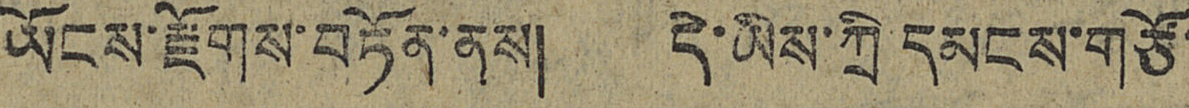ཡོངས་རྫོགས་བཏོན་ནས། དེ་ཡིས་ཀྲི དམངས་གཙོ་
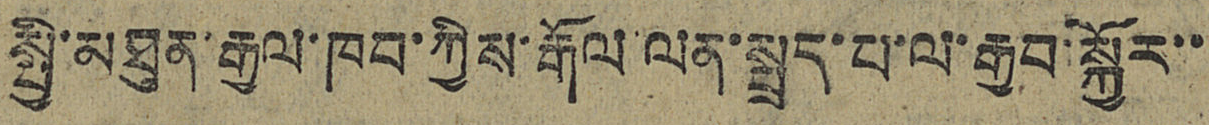སྤྱི་མཐུན་རྒྱལ་ཁབ་ཀྱིས་རྒོལ་ལན་སྤྲད་པ་ལ་རྒྱབ་སྐྱོར་་
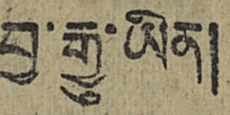བྱ་རྒྱུ་ཡིན།
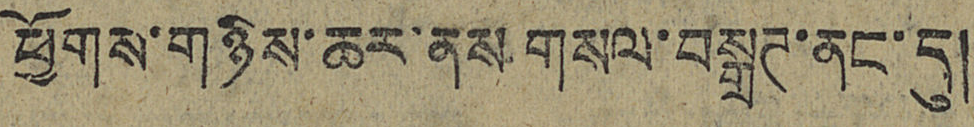ཕྱོགས་གཉིས་ཆར་ནས གསལ་བསྒྲཊ་ནང་དུ།
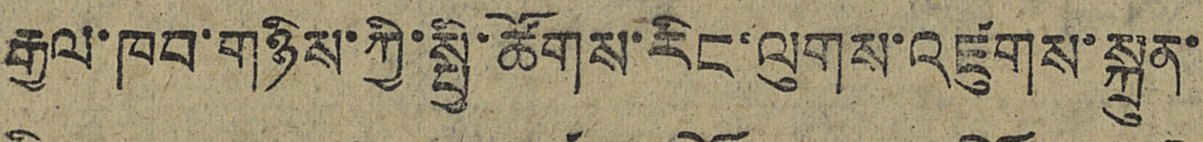རྒྱལ་ཁབ་གཉིས་ཀྱི་སྤྱི་ཚོགས་རིང་ལུགས་འཛུགས་སྐྲུན་
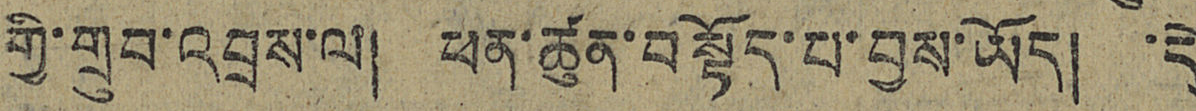གྱི་གྲུབ་འབྲས་ལ། ཕན་ཚུན་བསྟོད་པ་བྱས་ཡོད། ་དེ
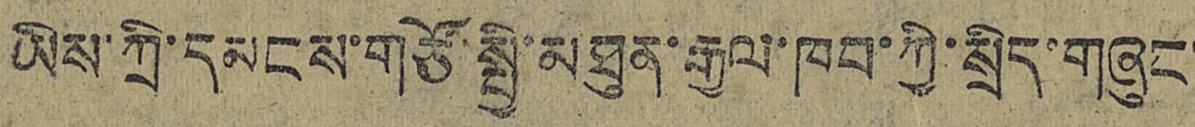ཡིས་ཀྲི་དམངས་གཙོ་སྤྱི་མཐུན་རྒྱལ་ཁབ་ཀྱི་སྲིད་གཞུང་
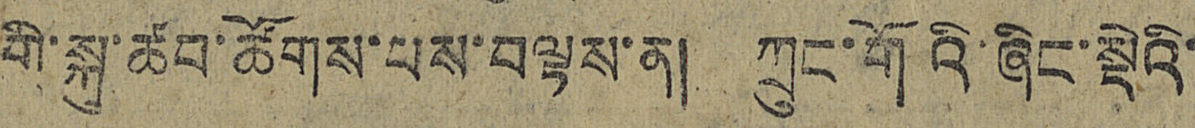གི་སྐུ་ཚབ་ཚོགས་པས་བསྟས་ན། ཀྲུང་གོའི་ཞིང་སྡེའི་
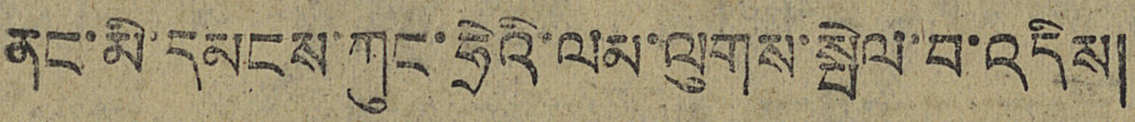ནང་མི་དམངས་ཀུང་ཧྲེའི་ལམ་ལུགས་སྤེལ་བ་འདིས།
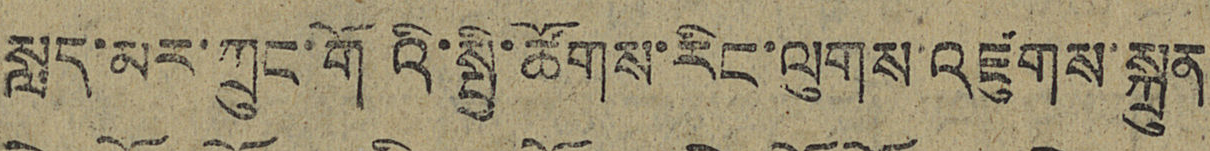སླད་མར་ཀྲུང་གོའི་སྤྱི་ཚོགས་རིང་ལུགས་འཛུགས་སྐྲུན
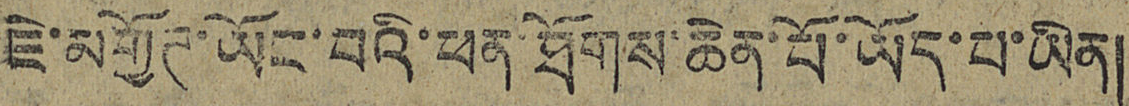ཇེ་མགྱོཊ་ཡོང་བའི་ཕན་ཐོགས་ཆེན་པོ་ཡོད་པ་ཡིན།
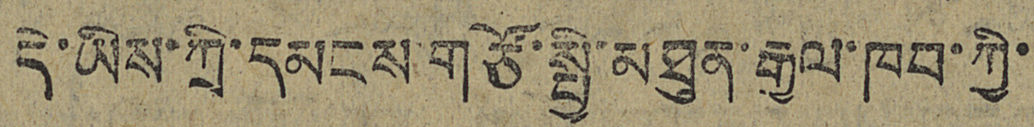དེ་ཡིས་ཀྲི་དམངས་གཙོ་སྤྱི་མཐུན་རྒྱལ་ཁབ་ཀྱི་
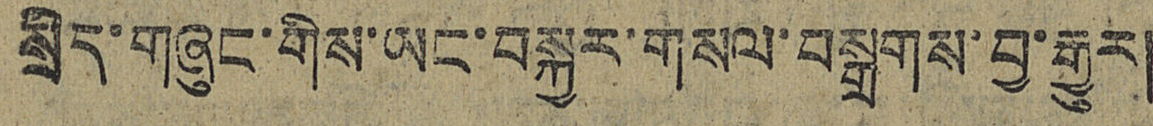སྲིད་གཞུང་གིས་ཡང་བསྐྱར་གསལ་བསྒྲགས་བྱ་རྒྱུར།
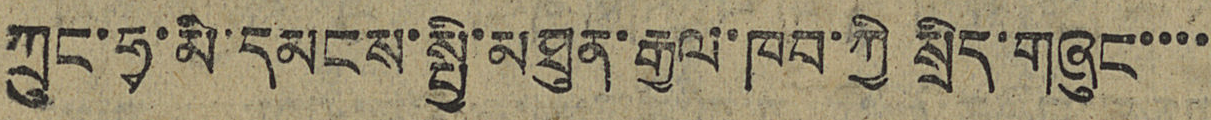ཀྲུང་ཧྭ་མི་དམངས་སྤྱི་མཐུན་རྒྱལ་ཁབ་ཀྱི སྲིད་གཞུང་་་་
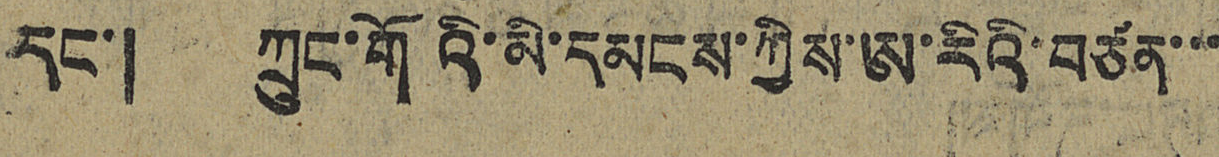དང་། ཀྲུང་གོའི་མི་དམངས་ཀྱིས་ཨ་རིའི་བཙན་་་
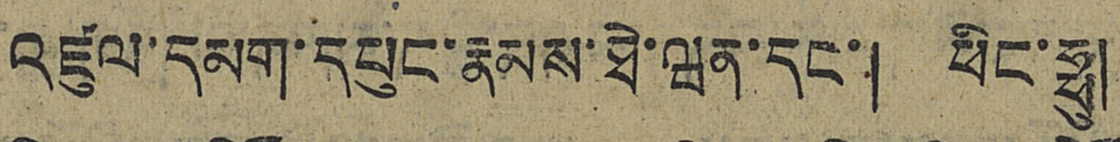འཛུལ་དམག་དཔུང་རྣམས་ཐེ་ཝན་དང་། ཕིང་ཧྥུ།
